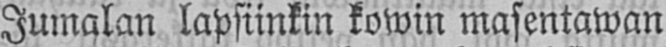Jumalan lapsiinkin kowin masentawan
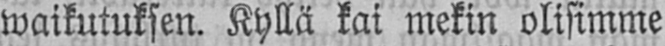waikutuksen. Kyllä kai mekin olisimme
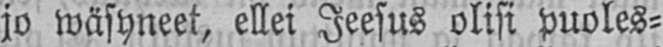jo wäsyneet, ellei Jeesus olisi puoles-
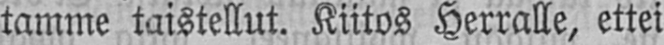tamme taistellut. Kiitos Herralle, ettei
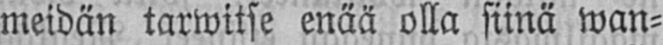meidän tarwitse enää olla siinä wan-
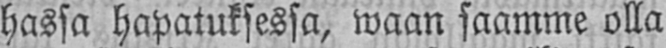hassa hapatuksessa, waan saamme olla
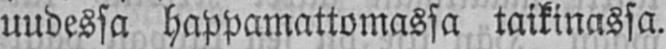uudessa happamattomassa taikinassa.
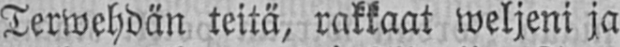Terwehdän teitä, rakkaat weljeni ja
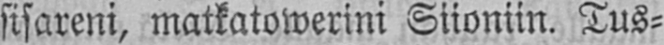sisareni, matkatowerini Siioniin. Tus-
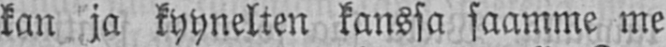kan ja kyynelten kanssa saamme me
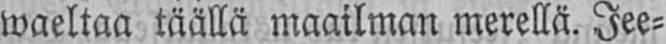waeltaa täällä maailman merellä. Jee-
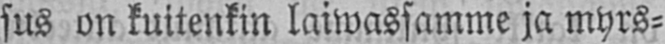sus on kuitenkin laiwassamme ja myrs-
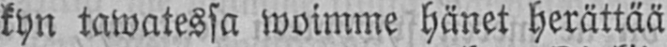kyn tawatessa woimme hänet herättää
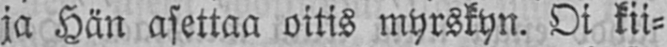ja Hän asettaa oitis myrskyn. Oi kii-
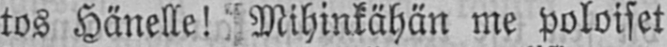tos Hänelle! Mihinkähän me poloiset
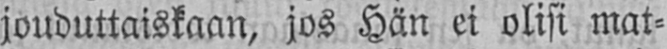jouduttaiskaan, jos Hän ei olisi mat-
